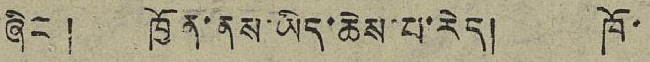ཞིང། ཁྱོན་ནས་ཡིད་ཆེས་པ་རེད། ཁོ་
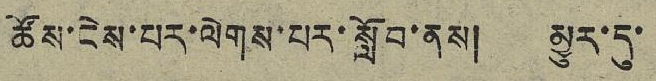ཚོས་ངེས་པར་ལེགས་པར་སློབ་ནས། མྱུར་དུ་
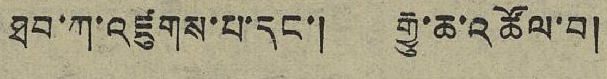ཐབ་ཀ་འཛུགས་པ་དང་། རྒྱུ་ཆ་འཚོལ་བ།
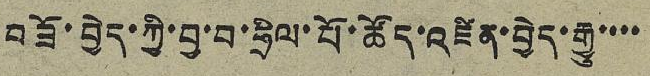བཟོ་བྱེད་ཀྱི་བྱ་བ་ཧྲིལ་པོ་ཚོད་འཛིན་བྱེད་རྒྱུ་་་་
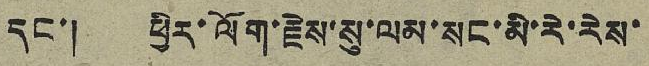དང་། ཕྱིར་ལོག་རྗེས་སུ་ལམ་སང་མི་རེ་རེས་
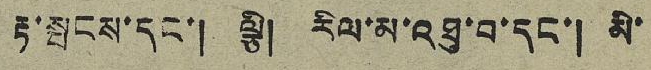རྟ་སྤངས་དང་། ལྕི། རིལ་མ་འཐུ་བ་དང་། མི་
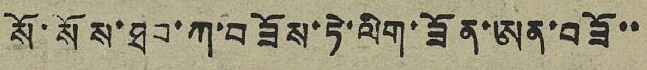སོ་སོས་ཐབ་ཀ་བཟོས་ཏེ་ལིག་ཟོན་ཨན་བཟོ་་
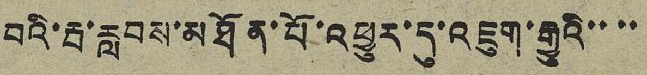བའི་རྦ་རླབས་མཐོན་པོ་འཕྱུར་དུ་འཇུག་རྒྱུའི་་་་
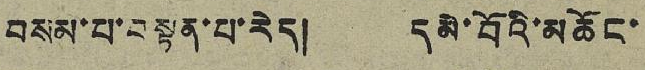བསམ་པ་བསྟན་པ་རེད། དམེ་བོའི་མཆོང་
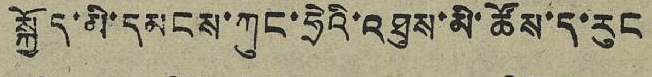སྐྱོད་མི་དམངས་ཀུང་ཧྲིའི་འཐུས་མི་ཚོས་ད་རུང
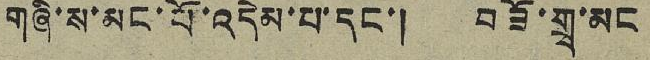གཞི་ས་མང་པོ་འདེམ་པ་དང་། བཟོ་གྲྭ་མང
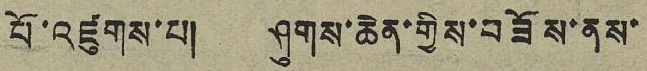པོ་འཛུགས་པ། ཤུགས་ཆེན་གྱིས་བཟོས་ནས་
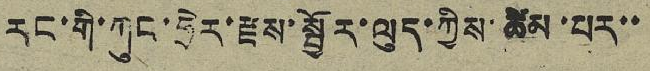རང་གི་ཀུང་ཧྲེར་རྫས་སྦྱོར་ལུད་ཀྱིས་ཚིམ་པར་་
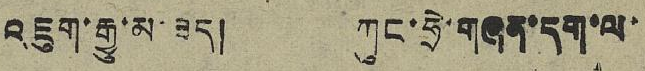འཇུག་རྒྱུ་མ་ཟད། ཀུང་ཧྲེ་གཞན་དག་ལ་
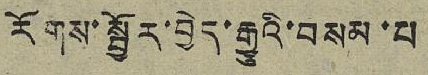རོགས་སྦྱོར་བྱེད་རྒྱུའི་བསམ་པ
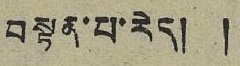བསྟན་པ་རེད། །
